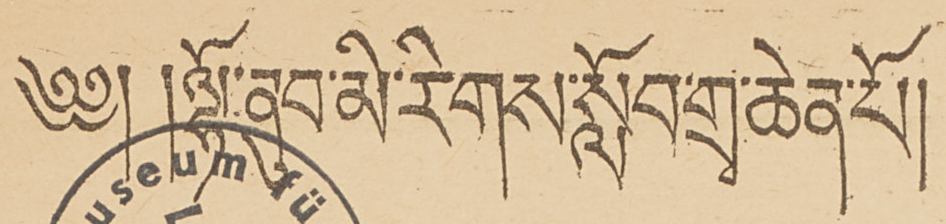༄༅། །ལྷོ་ནུབ་མི་རིགས་སློབ་གྲྭ་ཆེན་པོ།
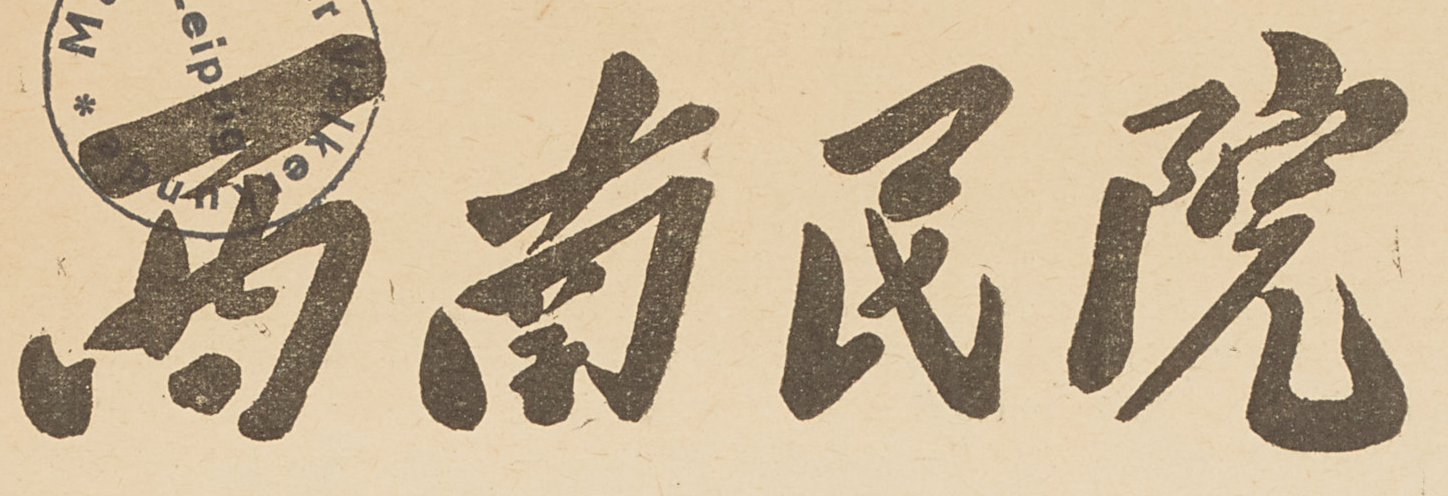西南民院
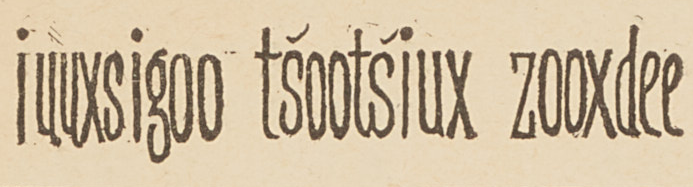iuuxsigoo ts'oots'iux zooxdee
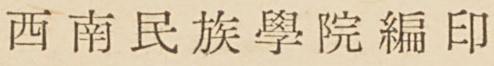西南民族學院編印
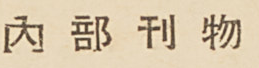內部刊物
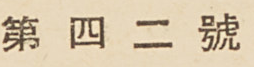第四二號
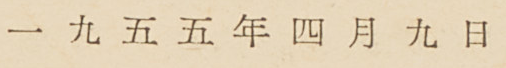一九五五年四月九日
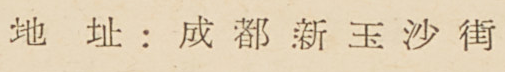地址：成都新玉沙街
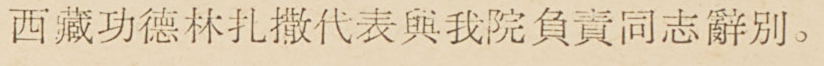西藏功德林扎撒代表與我院負責同志辭別。
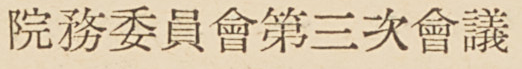院務委員會第三次會議
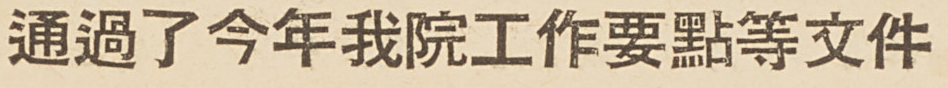通過了今年我院工作要點等文件
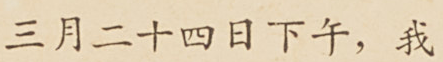三月二十四下午，我
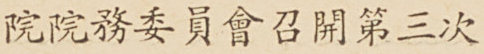院院務委員會召開第三次
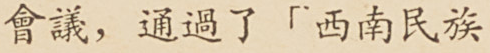會議，通過了「西南民族
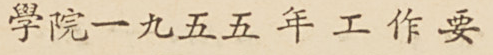學院一九五五年工作要
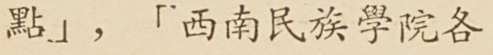點」，「西南民族學院各
